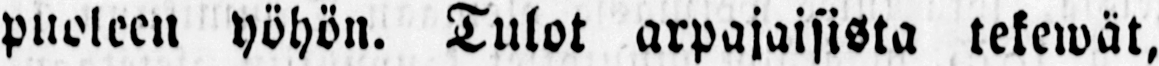puoleen yöhön. Tulot arpajaisista tekewät,
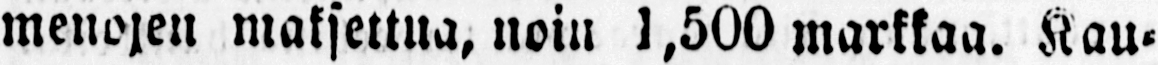menojen maksettua, noin 1,500 markkaa. Kau-
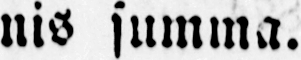nis summa.
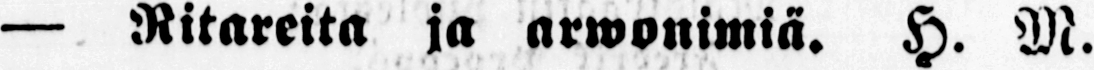— Ritareita ja arrwonimiä. H. M.
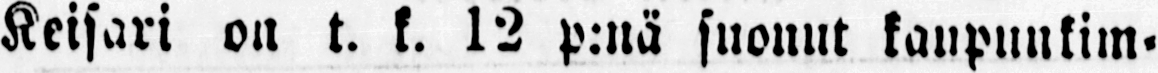Keisari on t. k. 12 p.nä suonut kaupunkim-
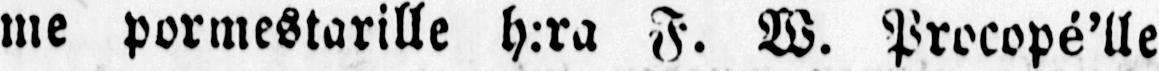me pormestarille h:ra F. W. Procopé'lle
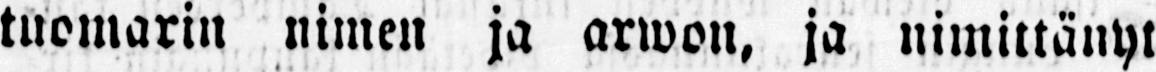tuomarin nimen ja arwon, ja nimittänyt
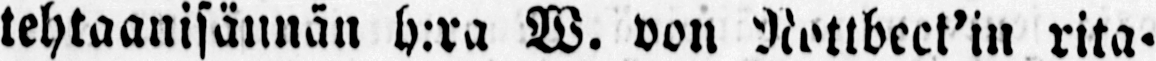tehtaanisännän h:ra W. von Nottbect'in rita-
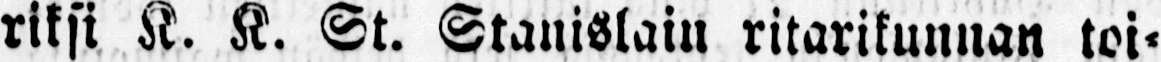riksi K. K. St. Stanislain ritarikunnan toi-
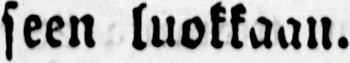seen luokkaan.
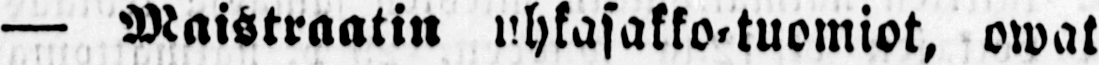— Maistraatin uhkasakko-tuomiot, owat
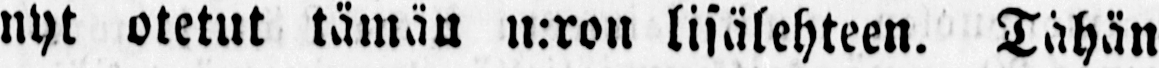nyt otetut tämän n:ron lisälehteen. Tähän
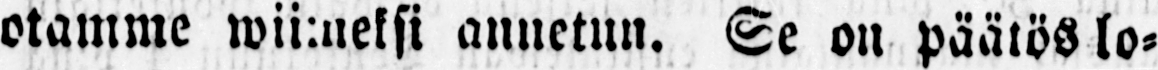otamme wiimeksi annetun. Se on päätös lo-
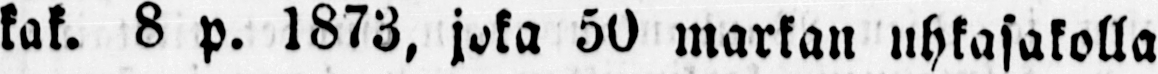kak. 8 p. 1873, joka 50 markan uhkasakolla
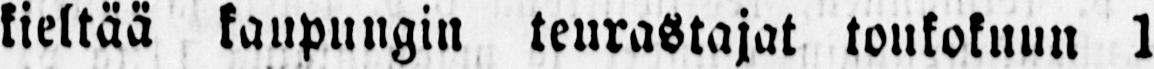kieltää kaupungin teurastajat toukokuun 1
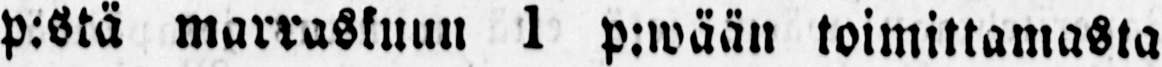p:stä marraskuun 1 p:wään toimittamasta
